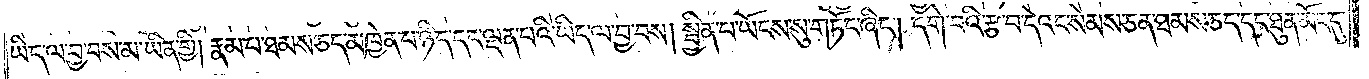ཡིད་ལ་བྱ་བས་མ་ཡིན་གྱི། རྣམ་པ་ཐམས་ཅད་མཁྱེན་པ་ཉིད་དང་ལྡན་པའི་ཡིད་ལ་བྱ་བས། སྦྱིན་པ་ཡོངས་སུ་གཏོང་ཞིང༌། དགེ་བའི་རྩ་བ་དེའང་སེམས་ཅན་ཐམས་ཅད་དང་ཐུན་མོང་དུ་
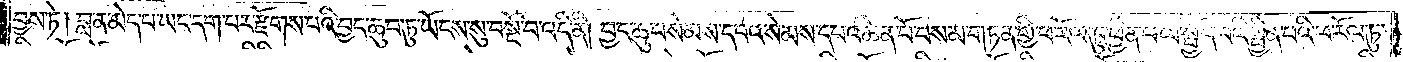བྱས་ཏེ། བླ་ན་མེད་པ་ཡང་དག་པར་རྫོགས་པའི་བྱང་ཆུབ་ཏུ་ཡོངས་སུ་བསྔོ་བ་འདི་ནི། བྱང་ཆུབ་སེམས་དཔའ་སེམས་དཔའ་ཆེན་པོ་བསམ་གཏན་གྱི་ཕ་རོལ་ཏུ་ཕྱིན་པ་ལ་སྤྱོད་པའི་སྦྱིན་པའི་ཕ་རོལ་ཏུ་
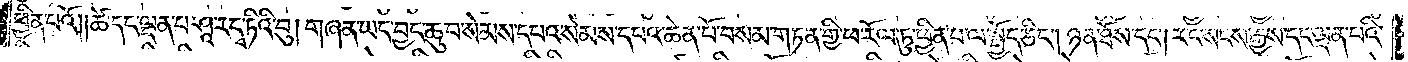ཕྱིན་པའོ། ཚེ་དང་ལྡན་པ་ཤཱ་རདྭ་ཏིའི་བུ། གཞན་ཡང་བྱང་ཆུབ་སེམས་དཔའ་སེམས་དཔའ་ཆེན་པོ་བསམ་གཏན་གྱི་ཕ་རོལ་ཏུ་ཕྱིན་པ་ལ་སྤྱོད་ཅིང༌། ཉན་ཐོས་དང༌། རང་སངས་རྒྱས་དང་ལྡན་པའི་
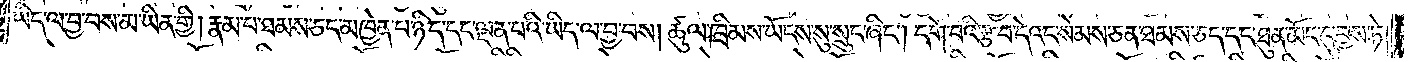ཡིད་ལ་བྱ་བས་མ་ཡིན་གྱི། རྣམ་པ་ཐམས་ཅད་མཁྱེན་པ་ཉིད་དང་ལྡན་པའི་ཡིད་ལ་བྱ་བས། ཚུལ་ཁྲིམས་ཡོངས་སུ་སྲུང་ཞིང༌། དགེ་བའི་རྩ་བ་དེའང་སེམས་ཅན་ཐམས་ཅད་དང་ཐུན་མོང་དུ་བྱས་ཏེ།
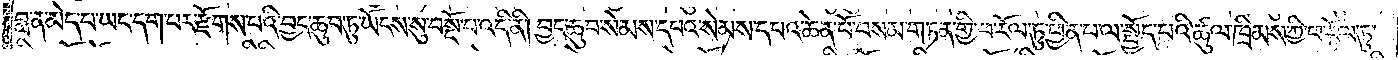བླ་ན་མེད་པ་ཡང་དག་པར་རྫོགས་པའི་བྱང་ཆུབ་ཏུ་ཡོངས་སུ་བསྔོ་བ་འདི་ནི། བྱང་ཆུབ་སེམས་དཔའ་སེམས་དཔའ་ཆེན་པོ་བསམ་གཏན་གྱི་ཕ་རོལ་ཏུ་ཕྱིན་པ་ལ་སྤྱོད་པའི་ཚུལ་ཁྲིམས་ཀྱི་ཕ་རོལ་ཏུ་
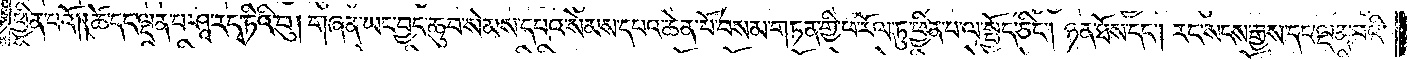ཕྱིན་པའོ། །ཚེ་དང་ལྡན་པ་ཤཱ་རདྭ་ཏིའི་བུ། གཞན་ཡང་བྱང་ཆུབ་སེམས་དཔའ་སེམས་དཔའ་ཆེན་པོ་བསམ་གཏན་གྱི་ཕ་རོལ་ཏུ་ཕྱིན་པ་ལ་སྤྱོད་ཅིང༌། ཉན་ཐོས་དང༌། རང་སངས་རྒྱས་དང་ལྡན་པའི་
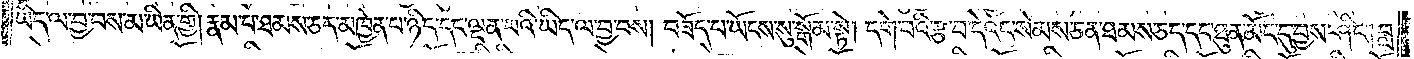ཡིད་ལ་བྱ་བས་མ་ཡིན་གྱི། རྣམ་པ་ཐམས་ཅད་མཁྱེན་པ་ཉིད་དང་ལྡན་པའི་ཡིད་ལ་བྱ་བས། བཟོད་པ་ཡོངས་སུ་སྒོམ་སྟེ། དགེ་བའི་རྩ་བ་དེའང་སེམས་ཅན་ཐམས་ཅད་དང་ཐུན་མོང་དུ་བྱས་ཤིང༌། བླ་
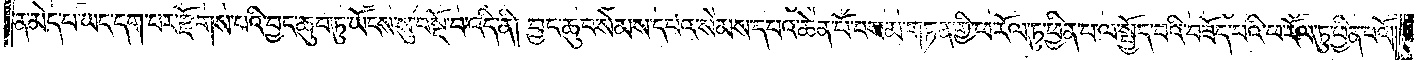ན་མེད་པ་ཡང་དག་པར་རྫོགས་པའི་བྱང་ཆུབ་ཏུ་ཡོངས་སུ་བསྔོ་བ་འདི་ནི། བྱང་ཆུབ་སེམས་དཔའ་སེམས་དཔའ་ཆེན་པོ་བསམ་གཏན་གྱི་ཕ་རོལ་ཏུ་ཕྱིན་པ་ལ་སྤྱོད་པའི་བཟོད་པའི་ཕ་རོལ་ཏུ་ཕྱིན་པའོ། །
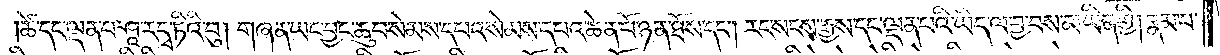ཚེ་དང་ལྡན་པ་ཤཱ་རདྭ་ཏིའི་བུ། གཞན་ཡང་བྱང་ཆུབ་སེམས་དཔའ་སེམས་དཔའ་ཆེན་པོ་ཉན་ཐོས་དང༌། རང་སངས་རྒྱས་དང་ལྡན་པའི་ཡིད་ལ་བྱ་བས་མ་ཡིན་གྱི། རྣམ་པ་
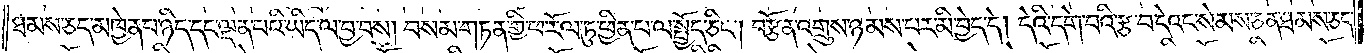ཐམས་ཅད་མཁྱེན་པ་ཉིད་དང་ལྡན་པའི་ཡིད་ལ་བྱ་བས། བསམ་གཏན་གྱི་ཕ་རོལ་ཏུ་ཕྱིན་པ་ལ་སྤྱོད་ཅིང༌། བརྩོན་འགྲུས་ཉམས་པར་མི་བྱེད་དེ། དེའི་དགེ་བའི་རྩ་བ་དེའང་སེམས་ཅན་ཐམས་ཅད་
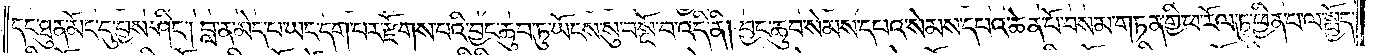དང་ཐུན་མོང་དུ་བྱས་ཤིང༌། བླ་ན་མེད་པ་ཡང་དག་པར་རྫོགས་པའི་བྱང་ཆུབ་ཏུ་ཡོངས་སུ་བསྔོ་བ་འདི་ནི། བྱང་ཆུབ་སེམས་དཔའ་སེམས་དཔའ་ཆེན་པོ་བསམ་གཏན་གྱི་ཕ་རོལ་ཏུ་ཕྱིན་པ་ལ་སྤྱོད་
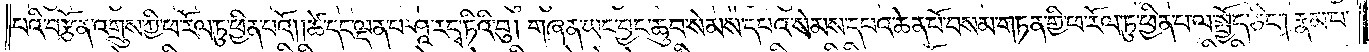པའི་བརྩོན་འགྲུས་ཀྱི་ཕ་རོལ་ཏུ་ཕྱིན་པའོ། །ཚེ་དང་ལྡན་པ་ཤཱ་རདྭ་ཏིའི་བུ། གཞན་ཡང་བྱང་ཆུབ་སེམས་དཔའ་སེམས་དཔའ་ཆེན་པོ་བསམ་གཏན་གྱི་ཕ་རོལ་ཏུ་ཕྱིན་པ་ལ་སྤྱོད་ཅིང༌། རྣམ་པ་
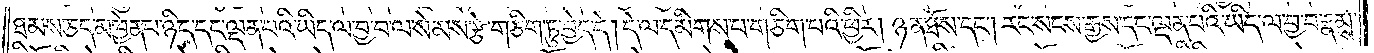ཐམས་ཅད་མཁྱེན་པ་ཉིད་དང་ལྡན་པའི་ཡིད་ལ་བྱ་བ་ལ་སེམས་རྩེ་གཅིག་ཏུ་བྱེད་དེ། དེ་ལ་དམིགས་པ་གཅིག་པའི་ཕྱིར། ཉན་ཐོས་དང༌། རང་སངས་རྒྱས་དང་ལྡན་པའི་ཡིད་ལ་བྱ་བ་རྣམས་
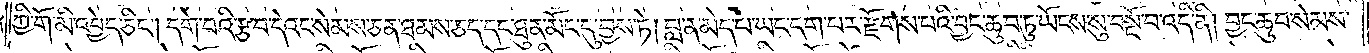ཀྱི་གོ་མི་འབྱེད་ཅིང༌། དགེ་བའི་རྩ་བ་དེའང་སེམས་ཅན་ཐམས་ཅད་དང་ཐུན་མོང་དུ་བྱ་སྟེ། བླ་ན་མེད་པ་ཡང་དག་པར་རྫོགས་པའི་བྱང་ཆུབ་ཏུ་ཡོངས་སུ་བསྔོ་བ་འདི་ནི། བྱང་ཆུབ་སེམས་
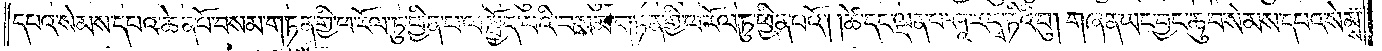དཔའ་སེམས་དཔའ་ཆེན་པོ་བསམ་གཏན་གྱི་ཕ་རོལ་ཏུ་ཕྱིན་པ་ལ་སྤྱོད་པའི་བསམ་གཏན་གྱི་ཕ་རོལ་ཏུ་ཕྱིན་པའོ། །ཚེ་དང་ལྡན་པ་ཤཱ་རདྭ་ཏིའི་བུ། གཞན་ཡང་བྱང་ཆུབ་སེམས་དཔའ་སེམས་
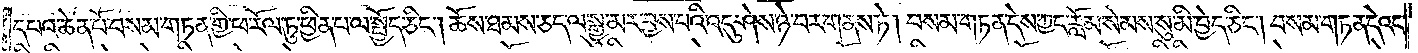དཔའ་ཆེན་པོ་བསམ་གཏན་གྱི་ཕ་རོལ་ཏུ་ཕྱིན་པ་ལ་སྤྱོད་ཅིང༌། ཆོས་ཐམས་ཅད་ལ་སྒྱུ་མར་བྱས་པའི་འདུ་ཤེས་ཉེ་བར་གནས་ཏེ། བསམ་གཏན་དེས་ཀྱང་རློམ་སེམས་སུ་མི་བྱེད་ཅིང༌། བསམ་གཏན་དེའང་
